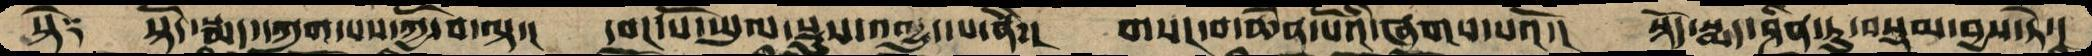སྟེ༑      སྟོད་སྨད་དཀུག་པས་ཀྱོ་བ་ལྟ་།   དབང་པོ་ཡུལ་སྡུས་འཁྱུད་པ་ནི་།   གསང་བ་ཆེན་པོའི་ཞགས་པའོ་།  སྟོད་སྨད་ཤིན་ཏུ་བསྡམ་བྱས་ཏེ་།
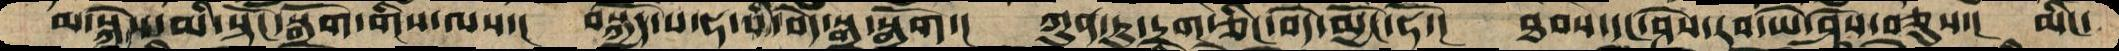མ་སྐྱེས་མི་སྟོང་སྒྲོག་གིས་ལས་།   བསྐྱོད་པ་ཧ་པི་བདེ་སྒྲ་སྒྲོག་།  ཀུན་ཏུ་དྲག་ཅིང་བདེ་མྱོང་ཧོ་།  ཐབས་དང་ཤེས་རབ་ཡེ་ཤེས་བཅུས་།  མིང་
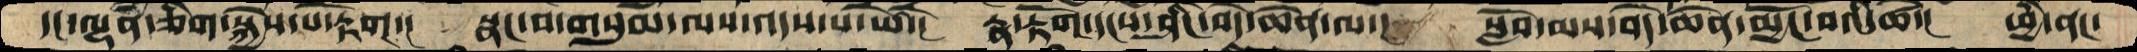དང་ལྷན་ཅིག་སྐྱེས་པ་རྟོག་།   སྣང་བ་གསུམ་ལས་འདས་པ་ཡེ་།  རྣ་རྟོག་དངས་ཤིང་བདེ་ཆེན་ལ་།  སློབ་མས་བདེ་ཆེན་མྱོང་བའི་ཚེ་།  ཕྱི་ནང་
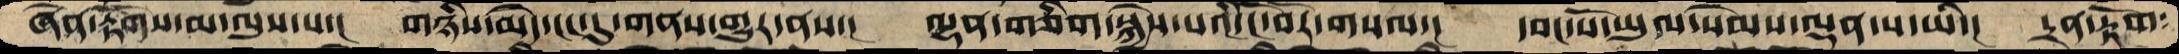ཞེན་རྟོགས་མ་ལུས་པ་།   གཉིས་མེད་ངང་དུ་གནས་གྱུར་ནས་།  ལྷན་གཅིག་སྐྱེས་པའི་ངོ་བོར་གསལ་།   དབང་པོ་ཡུལ་སེམས་ལྡན་པ་ཡི་།  དྲན་རྟོག་
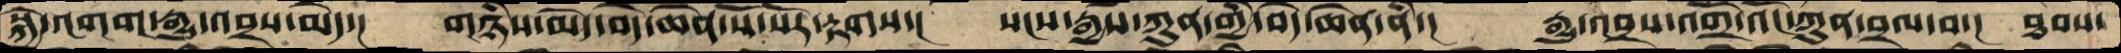སྐྱེ་འགག་རྒྱུ་འབྲས་མེད་།   གཉིས་མེད་བདེ་ཆེན་སོ་སོར་རྟགས་།   སངས་རྒྱས་ཀུན་གྱི་བདེ་ཆེན་ནི་།  རྒྱུ་འབྲས་འགྲོ་འོང་ཀུན་བྲལ་བ་།  ཐབས་
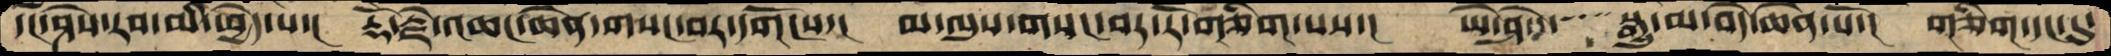དང་ཤེས་རབ་མི་ཕྱེད་པ་།  རྡོ་རྗེ་འཆང་ཆེན་གསང་བར་དགོངས་།  མ་ལུས་གསང་བར་རོ་གཅིག་པས་།  ཡེ་ཤེས་་་སྒྱུ་མ་བདེ་ཆེན་པོ་།  གཅིག་དང་དུ་
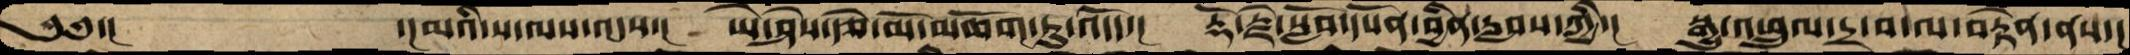༄༅་།        ་།མའི་ས་ལས་འདས་།  ཡེ་ཤེས་རྩེ་མོ་མཆོག་ཏུ་འདོད་།  རྡོ་རྗེ་སློབ་དཔོན་བྱིན་རླབས་ཀྱི་།  སྒྱུ་འཕྲུལ་དྲ་བ་ལ་བརྟེན་ནས་།
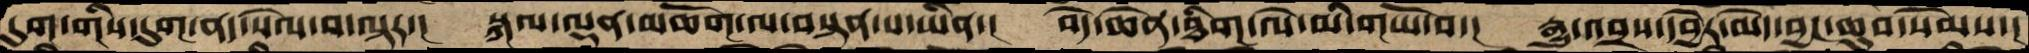དུག་གིས་དུག་ནད་སེལ་བ་ལྟར་།  སྐལ་ལྡན་མཆོག་ལ་བསྟན་པ་ཡིན་།  བདེ་ཆེན་ཐིག་ལེ་མི་གཡོ་བ་།  རྒྱུ་འབྲས་དབྱེར་མེད་བྱང་ཆུབ་སེམས་།
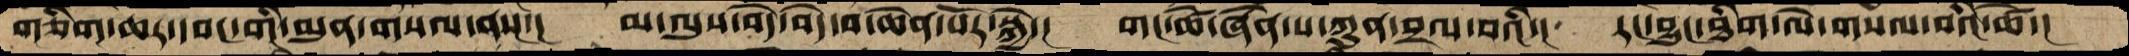གཅིག་ཆར་དབང་གི་མུན་གསལ་ནས་།  མ་ལུས་བདེ་བདེ་བ་ཆེན་པོར་སྐྱེ་།  གང་ཚེ་ཞེན་པ་ཀུན་བྲལ་བའི་།  རང་བྱུང་ཐིག་ལེ་གསལ་བའི་ཚེ་།
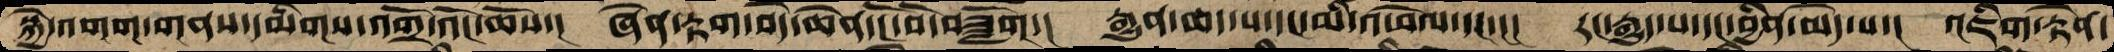སྐྱེ་འགག་གནས་དམིགས་འགྲོ་འོང་ཆོས་།  ཞེན་རྟག་བདེ་ཆེན་ངོ་བོ་བཟློག་།  རྒྱུན་ཆད་པ་དང་མི་འཕེལ་དང་་།  རང་རྒྱུད་པ་དང་བྱིན་མེད་པ་།  འཇིག་རྟེན་
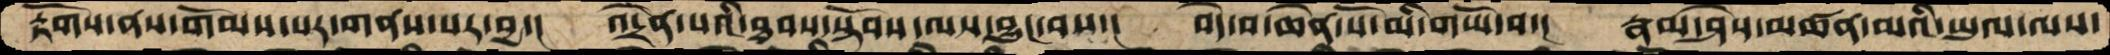རྟོགས་ནས་གོམས་པར་གནས་པར་བྱ་།  འདྲེན་པའི་ཐབས་སྟོབས་ལས་བྱུང་བས་།  བདེ་བ་ཆེན་པོ་མི་གཡོ་བ་།  རྣམ་ཤེས་མཚན་མའི་ཡུལ་ལས་
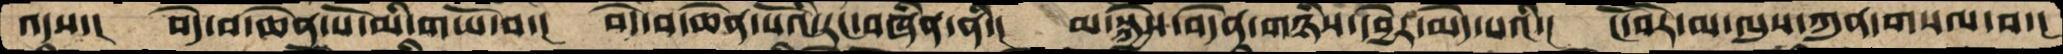འདས་།  བདེ་བ་ཆེན་པོ་མི་གཡོ་བ་།  བདེ་བ་ཆེན་པོའི་རང་བཞིན་ནི་།  མ་སྐྱེས་བདེན་གཉིས་དབྱེར་མེད་པའི་།  ངོ་བོར་མ་ལུས་ཀུན་གསལ་བ་།
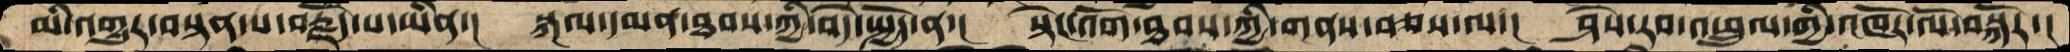མི་འགྱུར་བསྟན་པ་བརྗོད་པ་ཡིན་།  སྐལ་དམན་ཐབས་ཀྱི་བདེ་སྤྱོད་ན་།  སྟེང་འོག་ཐབས་ཀྱི་གནས་བཅས་ལ་།  ཤེས་རབ་འཕྲུལ་གྱི་འཁོར་ལོ་བསྐོར་།
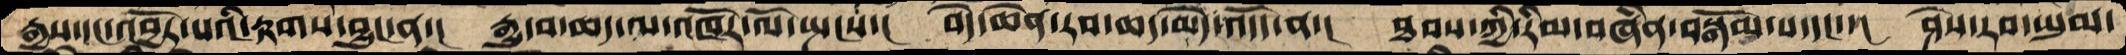རྒྱས་དང་འབྱོར་པའི་རྟགས་བྱུང་ན།  རྒྱུ་བ་ཆད་ལ་འཁོར་ལོ་སྤངས་།  བདེ་ཆེན་རབ་ཆད་མེད་འདོད་ན་།  ཐབས་ཀྱི་རིམ་བཞིན་བསྒོམ་པ་དང་་།  ཤེས་རབ་ཡུམ་
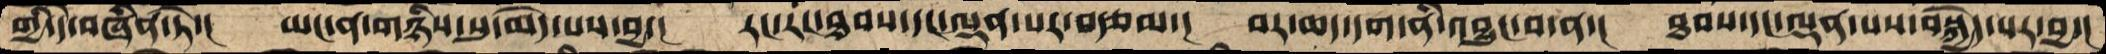གྱི་དེ་བཞིན་ཏེ་།  ཡང་ན་གཉིས་སུ་མེད་པར་བྱ་།  རང་རང་ཐབས་དང་ལྡན་པར་བརྩམ་།  བར་ཆད་དག་ནི་འབྱུང་བ་ན་།  ཐབས་དང་ལྡན་པས་བསྐྱེད་པར་བྱ་།
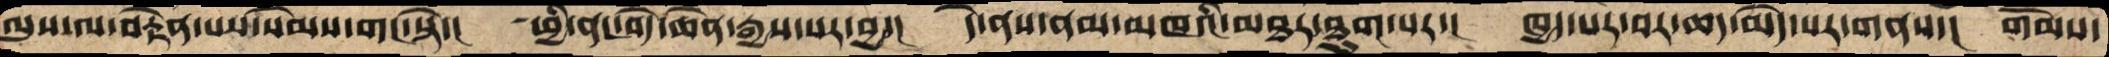ལུས་ལ་བརྟེན་པས་སེམས་གང་སྟེ་།  ཕྱི་ནང་བདེ་ཆེན་རྒྱས་པར་བྱ་།  དེ་ནས་ནམ་མཁའི་མཐར་ཐུག་པར་།  ཁྱད་པར་བར་ཆད་མེད་པར་གནས་།  གོམས་
